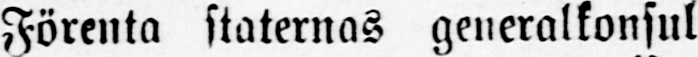Förenta staternas generalkonsul
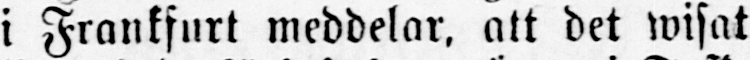i Frankfurt meddelar, att det wisat
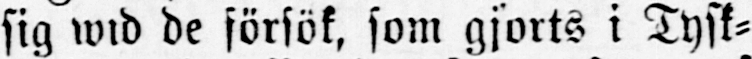sig wid de försök, som gjorts i Tysk-
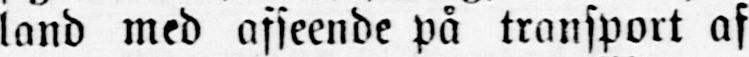land med afseende på transport af
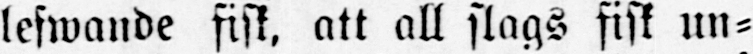lefwande fisk, att all slags fisk un-
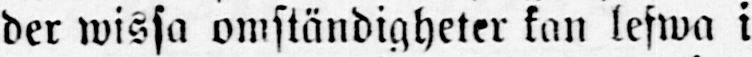der wissa omständigheter kan lefwa i
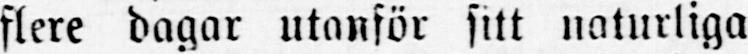flere dagar utanför sitt naturliga
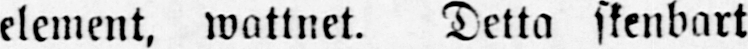element, wattnet. Detta skenbart
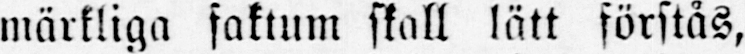märkliga faktum skall lätt förstås,
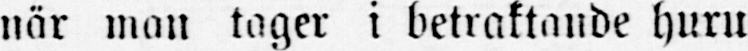när man tager i betraktande huru
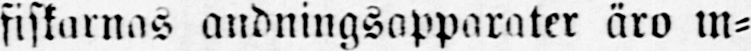fiskarnas andningsapparater äro in-
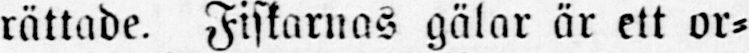rättade. Fiskarnas gälar är ett or-
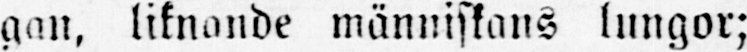gan, liknande människans lungor;
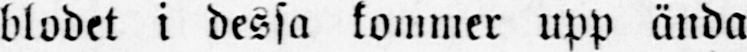blodet i dessa kommer upp ända
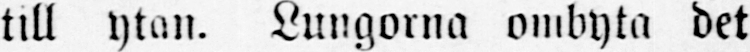till ytan. Lungorna ombyta det
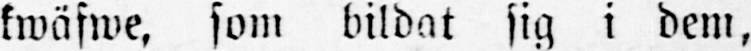kwäfwe, som bildat sig i dem,
